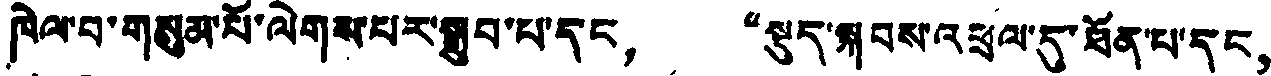ཁེལ་བ་གསུམ་པོ་ལེགས་པར་སྒྲུབ་པ་དང， “སྡུད་སྐབས་འཕྲལ་དུ་ཐོན་པ་དང，
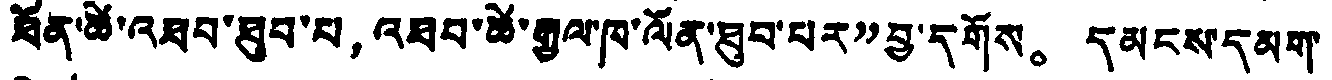ཐོན་ཚེ་འཐབ་ཐུབ་པ，འཐབ་ཚེ་རྒྱལ་ཁ་ལོན་ཐུབ་པར”བྱ་དགོས。 དམངས་དམག
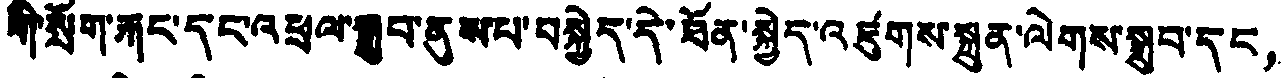གི་སྲོག་རྐང་དང་འཕྲལ་སྒྲུབ་ནུས་པ་བསྐྱེད་དེ་ཐོན་སྐྱེད་འཛུགས་སྐྲུན་ལེགས་སྒྲུབ་དང，
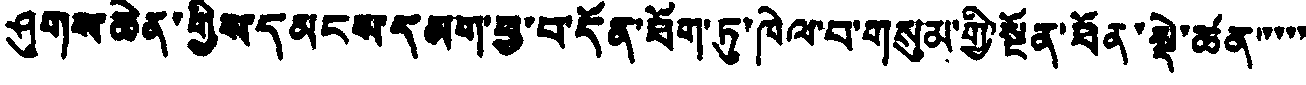ཤུགས་ཆེན་གྱིས་དམངས་དམག་བྱ་བ་དོན་ཐོག་ཏུ་ཁེལ་བ་གསུམ་གྱི་སྔོན་ཐོན་སྡེ་ཚན་་་་་་
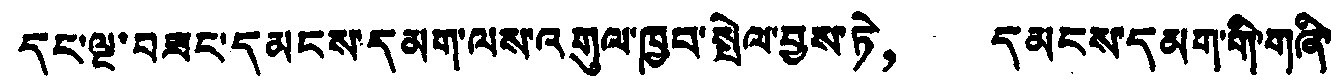དང་ལྔ་བཟང་དམངས་དམག་ལས་འགུལ་ཁྱབ་སྤེལ་བྱས་ཏེ， དམངས་དམག་གི་གཞི་
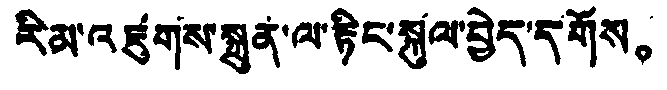རིམ་འཛུགས་སྐྲུན་ལ་རྟིང་སྐུལ་བྱེད་དགོས。
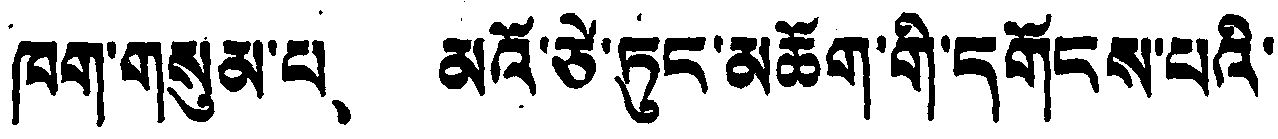ཁག་གསུམ་པ、 མའོ་ཙེ་ཏུང་མཆོག་གི་དགོངས་པའི་
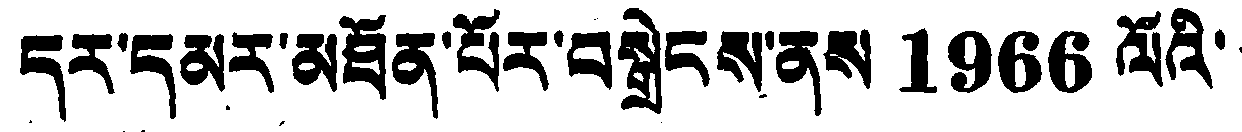དར་དམར་མཐོན་པོར་བསྒྲེངས་ནས 1966 ལོའི་
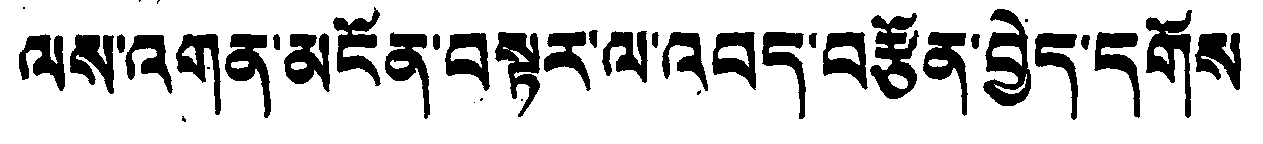ལས་འགན་མངོན་བསྟར་ལ་འབད་བརྩོན་བྱེད་དགོས
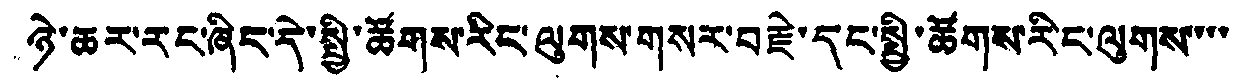ཉེ་ཆར་རང་ཞིང་དེ་སྤྱི་ཚོགས་རིང་ལུགས་གསར་བརྗེ་དང་སྤྱི་ཚོགས་རིང་ལུགས་་་་
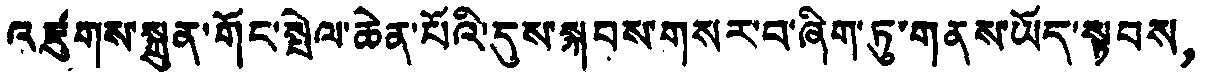འཛུགས་སྐྲུན་གོང་སྤེལ་ཆེན་པོའི་དུས་སྐབས་གསར་བ་ཞིག་ཏུ་གནས་ཡོད་སྟབས，
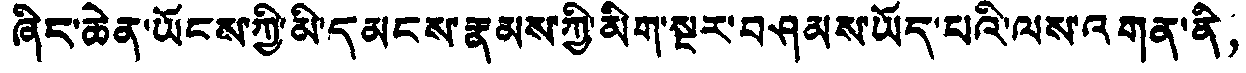ཞིང་ཆེན་ཡོངས་ཀྱི་མི་དམངས་རྣམས་ཀྱི་མིག་སྔར་བཤམས་ཡོད་པའི་ལས་འགན་ནི，
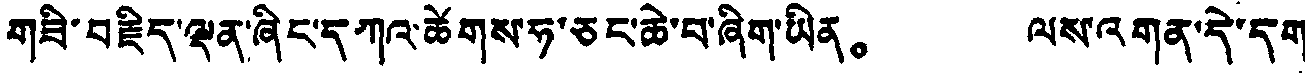གཟི་བརྗིད་ལྡན་ཞིང་དཀའ་ཚེགས་ཧ་ཅང་ཆེ་བ་ཞིག་ཡིན。 ལས་འགན་དེ་དག
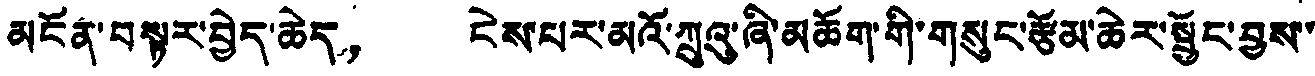མངོན་བསྟར་བྱེད་ཆེད， ངེས་པར་མའོ་ཀྲུའུ་ཞི་མཆོག་གི་གསུང་རྩོམ་ཆེར་སྦྱོང་བྱས་
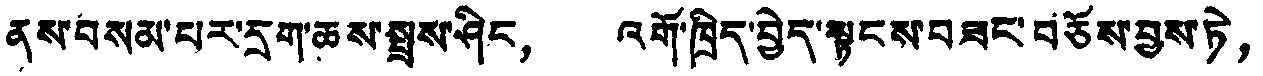ནས་བསམ་པར་དྲག་ཆས་སྤུས་ཤིང， འགོ་ཁྲིད་བྱེད་སྟངས་བཟང་བཅོས་བྱས་ཏེ，
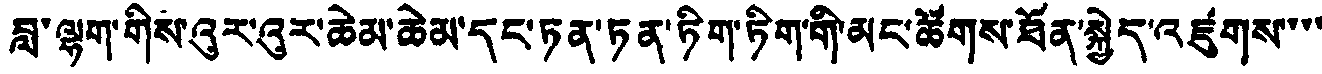བླ་ལྷག་གིས་འུར་འུར་ཆེམ་ཆེམ་དང་ཏན་ཏན་ཏིག་ཏིག་གི་མང་ཚོགས་ཐོན་སྐྱེད་འཛུགས་་་་
